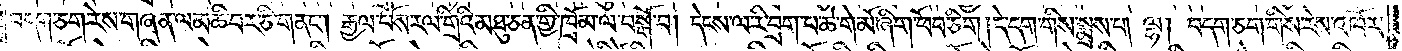བདག་ཅག་རེས་གཞན་ལ་མཆི་བར་ཅི་གནང༌། རྒྱལ་པོས་རལ་གྲིའི་མཐུ་ཅན་གྱི་ཁྲོམ་ལ་བསྒོ་བ། དེངས་ལ་རི་བྲག་པ་ཆེ་གེ་མོ་ཞིག་ཕོབ་ཅིག །དེ་དག་གིས་སྨྲས་པ། ལྷ། བདག་ཅག་གིས་རེས་འཁོར་
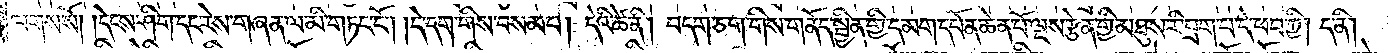ལགས་སོ། །དེངས་ཤིག་དང་རེས་གཞན་ལ་མི་གཏང་ངོ༌། །དེ་དག་གིས་བསམ་པ། དེའི་ཚེ་ནི། བདག་ཅག་གིས་གནོད་སྦྱིན་གྱི་དམག་དཔོན་ཆེན་པོ་ལྔས་རྩེན་གྱི་མཐུས་རི་བྲག་པ་དེ་ཕབ་ཀྱི། ད་ནི།
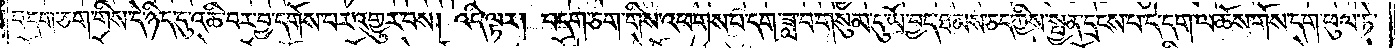བདག་ཅག་གིས་དེ་ཉིད་དུ་འཆི་བར་བྱ་དགོས་པར་འགྱུར་བས། འདི་ལྟར། བདག་ཅག་གིས་འཕགས་པ་དག་ཟླ་བ་གསུམ་དུ་ཡོ་བྱད་ཐམས་ཅད་ཀྱིས་སྤྱན་དྲངས་པ་དེ་དག་ལ་ཆོས་གོས་དག་ཕུལ་ཏེ་
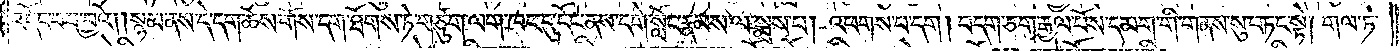འདོང་བར་བྱའོ། །སྙམ་ནས་དེ་དག་ཆོས་གོས་དག་ཐོགས་ཏེ་གཙུག་ལག་ཁང་དུ་དོང་ནས་དགེ་སློང་རྣམས་ལ་སྨྲས་པ། འཕགས་པ་དག །བདག་ཅག་རྒྱལ་པོས་དམག་གི་གནས་སུ་བཏང་སྟེ། གལ་ཏེ་
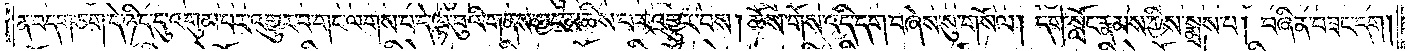ན་བདག་ཅག་དེ་ཉིད་དུ་འགུམ་པར་འགྱུར་བ་གང་ལགས་པ་དེ་ལྟ་བུའི་གནས་ཀྱང་མཆིས་པར་འགྱུར་བས། ཆོས་གོས་འདི་དག་བཞེས་སུ་གསོལ། དགེ་སློང་རྣམས་ཀྱིས་སྨྲས་པ། བཞིན་བཟང་དག །
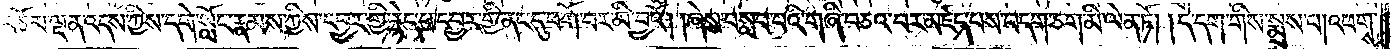བཅོམ་ལྡན་འདས་ཀྱིས་དགེ་སློང་རྣམས་ཀྱིས་དབྱར་གྱི་རྙེད་པ་དབྱར་གྱི་ནང་དུ་བགོ་བར་མི་བྱའོ། །ཞེས་བསླབ་པའི་གཞི་བཅའ་བར་མཛད་པས་བདག་ཅག་མི་ལེན་ཏོ། །དེ་དག་གིས་སྨྲས་པ། འཕགས་
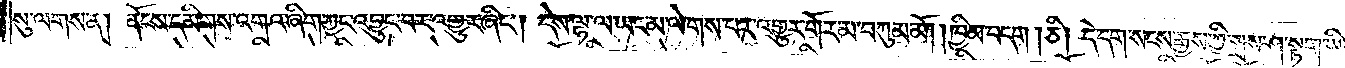སུ་ལགས་ན། ནོངས་དམིགས་འགའ་ཞིག་ཀྱང་འབྱུང་བར་འགྱུར་ཞིང༌། དེས་ལྷ་ལ་ཡང་མ་ལེགས་པར་འགྱུར་གོར་མ་བཀུམ་མོ། །ཁྱིམ་བདག །ཅི། དེ་དག་སངས་རྒྱས་ཀྱི་སྲས་ཤ་སྟག་ཡིན་
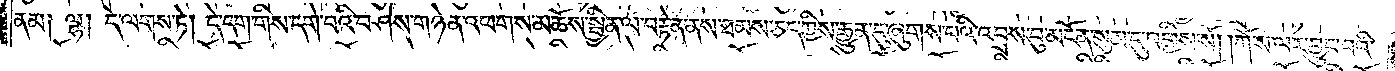ནམ༑ ལྷ། དེ་ལགས་ཏེ། དེ་དག་གིས་དགེ་བའི་བཤེས་གཉེན་འཕགས་མ་ཆོས་སྦྱིན་ལ་བརྟེན་ནས་ཐམས་ཅད་ཀྱིས་རྒྱུན་དུ་ཞུགས་པའི་འབྲས་བུ་མངོན་སུམ་དུ་བགྱིས་སོ། །ཀོ་ས་ལར་བྱུང་བའི་
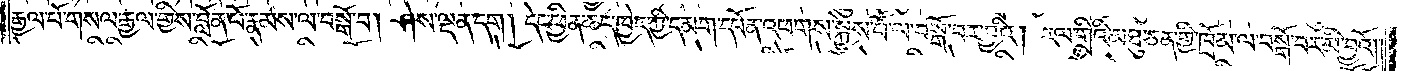རྒྱལ་པོ་གསལ་རྒྱལ་གྱིས་བློན་པོ་རྣམས་ལ་བསྒོ་བ། ཤེས་ལྡན་དག །དེང་ཕྱིན་ཆད་ཁྱེད་ཀྱི་དམག་དཔོན་འཕགས་སྐྱེས་པོ་ལ་བསྒོ་བར་བྱའི། རལ་གྲིའི་མཐུ་ཅན་གྱི་ཁྲོམ་ལ་བསྒོ་བར་མི་བྱའོ༎
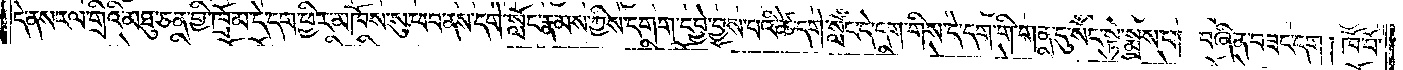དེ་ནས་རལ་གྲིའི་མཐུ་ཅན་གྱི་ཁྲོམ་དེ་དག་ཕྱིར་མཁོས་སུ་ཕབ་ནས་དགེ་སློང་རྣམས་ཀྱིས་དགག་དབྱེ་བྱས་པའི་ཚེ་དགེ་སློང་དེ་དག་གིས་དེ་དག་གིས་གན་དུ་སོང་སྟེ་སྨྲས་པ། བཞིན་བཟང་དག ། ཁོ་བོ་
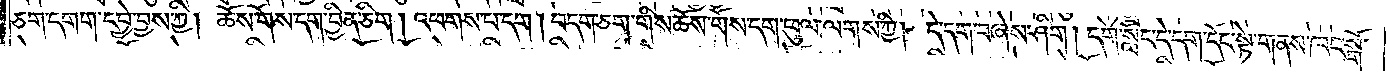ཅག་དགག་དབྱེ་བྱས་ཀྱི། ཆོས་གོས་དག་བྱིན་ཅིག །འཕགས་པ་དག །བདག་ཅག་གིས་ཆོས་གོས་དག་ཕུལ་ལགས་ཀྱི། དེ་དག་བཞེས་ཤིག །དགེ་སློང་དེ་དག་དོང་སྟེ་གནས་ཁང་སྒོ་
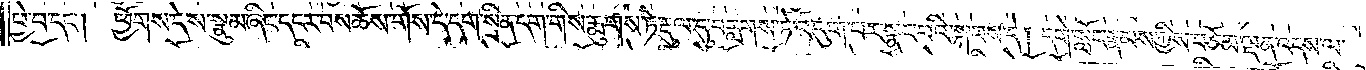ཕྱེ་བ་དང༌། ཕྱོགས་དེས་སྣུམ་ཞིང་དངར་བས་ཆོས་གོས་དེ་དག་སྲིན་དག་གིས་རྨུགས་ཏེ་རྡུལ་དུ་བརླགས་ཏེ་འདུག་པར་སྣང་བའི་སྐབས་དེ། དགེ་སློང་རྣམས་ཀྱིས་བཅོམ་ལྡན་འདས་ལ་
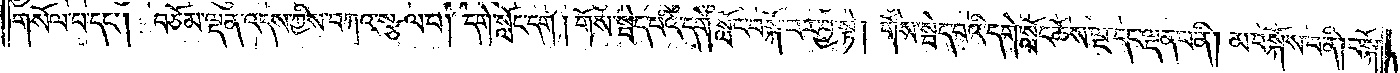གསོལ་བ་དང༌། བཅོམ་ལྡན་འདས་ཀྱིས་བཀའ་སྩལ་པ། དགེ་སློང་དག །གོས་སྦེད་པའི་དགེ་སློང་བསྐོ་བར་བྱ་སྟེ། གོས་སྦེད་པའི་དགེ་སློང་ཆོས་ལྔ་དང་ལྡན་པ་ནི། མ་བསྐོས་པ་ནི།བསྐོ་
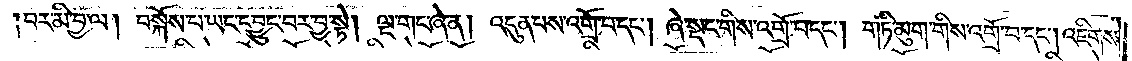བར་མི་བྱ་ལ། བསྐོས་པ་ཡང་དབྱུང་བར་བྱ་སྟེ། ལྔ་གང་ཞེ་ན། འདུན་པས་འགྲོ་བ་དང༌། ཞེ་སྡང་གས་འགྲོ་བ་དང༌། གཏི་མུག་གིས་འགྲོ་བ་དང༌།འཇིགས་
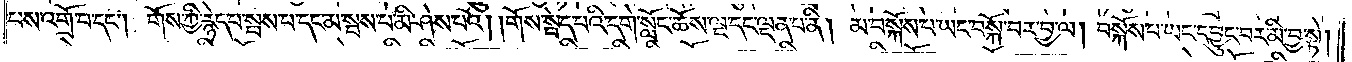པས་འགྲོ་བ་དང༌། གོས་ཀྱི་རྙེད་པ་སྦས་པ་དང་མ་སྦས་པ་མི་ཤེས་པའོ། །གོས་སྦེད་པའི་དགེ་སློང་ཆོས་ལྔ་དང་ལྡན་པ་ནི། མ་བསྐོས་པ་ཡང་བསྐོ་བར་བྱ་ལ། བསྐོས་པ་ཡང་དབྱུང་བར་མི་བྱ་སྟེ།
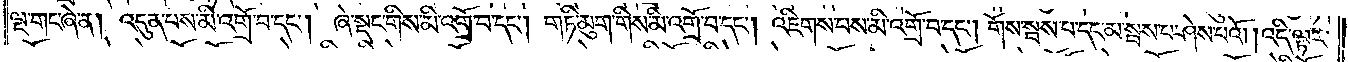ལྔ་གང་ཞེ་ན། འདུན་པས་མི་འགྲོ་བ་དང༌། ཞེ་སྡང་གིས་མི་འགྲོ་བ་དང༌། གཏི་མུག་གིས་མི་འགྲོ་བ་དང༌། འཇིགས་པས་མི་འགྲོ་བ་དང༌། གོས་སྦས་པ་དང་མ་སྦས་པ་ཤེས་པའོ། །འདི་ལྟར་
